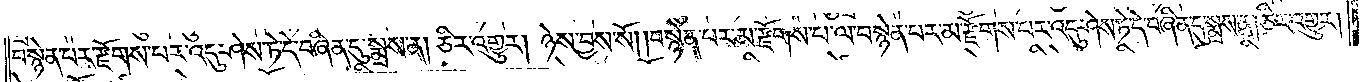བསྙེན་པར་རྫོགས་པར་འདུ་ཤེས་ཏེ་དེ་བཞིན་དུ་སྨྲས་ན། ཅིར་འགྱུར། ཉེས་བྱས་སོ། །བསྙེན་པར་མ་རྫོགས་པ་ལ་བསྙེན་པར་མ་རྫོགས་པར་འདུ་ཤེས་ཏེ་དེ་བཞིན་དུ་སྨྲས་ན། ཅིར་འགྱུར།
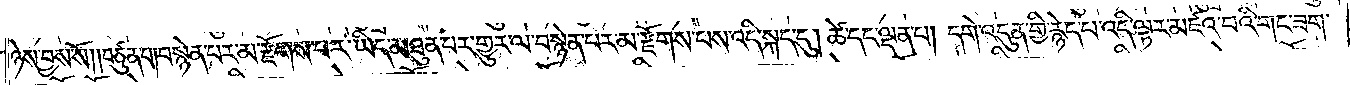ཉེས་བྱས་སོ། །བཙུན་པ། བསྙེན་པར་མ་རྫོགས་པར་ཡིད་མཐུན་པར་གྱུར་ལ་བསྙེན་པར་མ་རྫོགས་པས་འདི་སྐད་དུ། ཚེ་དང་ལྡན་པ། དགེ་འདུན་གྱི་རྙེད་པ་འདི་ལྟར་མཛའ་བའི་གང་ཟག་
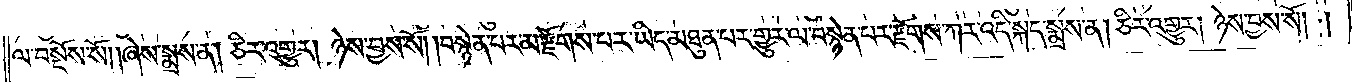ལ་བསྔོས་སོ། །ཞེས་སྨྲས་ན། ཅིར་འགྱུར། ཉེས་བྱས་སོ། །བསྙེན་པར་མ་རྫོགས་པར་ཡིད་མཐུན་པར་གྱུར་ལ་བསྙེན་པར་རྫོགས་ཀར་འདི་སྐད་སྨྲས་ན། ཅིར་འགྱུར། ཉེས་བྱས་སོ། །
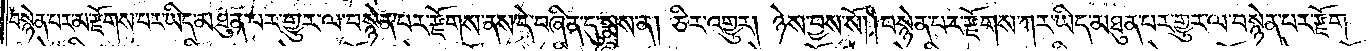བསྙེན་པར་མ་རྫོགས་པར་ཡིད་མཐུན་པར་གྱུར་ལ་བསྙེན་པར་རྫོགས་ནས་དེ་བཞིན་དུ་སྨྲས་ན། ཅིར་འགྱུར། ཉེས་བྱས་སོ། །བསྙེན་པར་རྫོགས་ཀར་ཡིད་མཐུན་པར་གྱུར་ལ་བསྙེན་པར་རྫོགས་
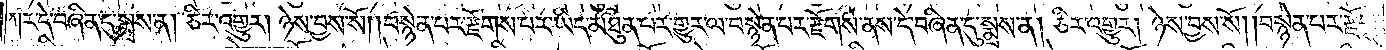ཀར་དེ་བཞིན་དུ་སྨྲས་ན། ཅིར་འགྱུར། ཉེས་བྱས་སོ། །བསྙེན་པར་རྫོགས་པར་ཡིད་མཐུན་པར་གྱུར་ལ་བསྙེན་པར་རྫོགས་ནས་དེ་བཞིན་དུ་སྨྲས་ན། ཅིར་འགྱུར། ཉེས་བྱས་སོ། །བསྙེན་པར་རྫོགས་
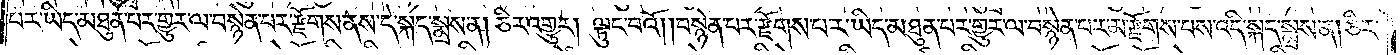པར་ཡིད་མཐུན་པར་གྱུར་ལ་བསྙེན་པར་རྫོགས་ནས་དེ་སྐད་སྨྲས་ན། ཅིར་འགྱུར། ལྟུང་བའོ། །བསྙེན་པར་རྫོགས་པར་ཡིད་མཐུན་པར་གྱུར་ལ་བསྙེན་པར་མ་རྫོགས་པས་འདི་སྐད་སྨྲས་ན། ཅིར་
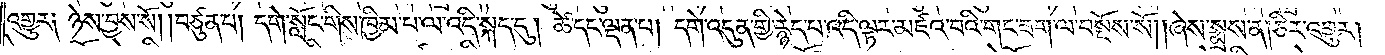འགྱུར༑ ཉེས་བྱས་སོ། །བཙུན་པ། དགེ་སློང་གིས་ཁྱིམ་པ་ལ་འདི་སྐད་དུ། ཚེ་དང་ལྡན་པ། དགེ་འདུན་གྱི་རྙེད་པ་འདི་ལྟར་མཛའ་བའི་གང་ཟག་ལ་བསྔོས་སོ། །ཞེས་སྨྲས་ན། ཅིར་འགྱུར།
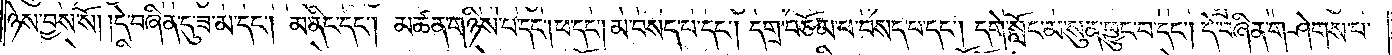ཉེས་བྱས་སོ། །དེ་བཞིན་དུ་ཟ་མ་དང༌། མ་ནིང་དང༌། མཚན་གཉིས་པ་དང༌། ཕ་དང༌། མ་བསད་པ་དང༌། དགྲ་བཅོམ་པ་བསད་པ་དང༌། དགེ་སློང་མ་སུན་ཕྱུང་བ་དང༌། དེ་བཞིན་གཤེགས་པ་
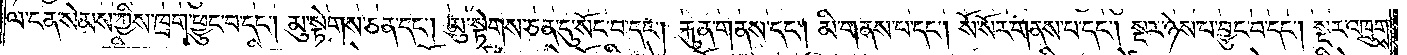ལ་ངན་སེམས་ཀྱིས་ཁྲག་ཕྱུང་བ་དང༌། མུ་སྟེགས་ཅན་དང༌། མུ་སྟེགས་ཅན་དུ་སོང་བ་དང༌། རྐུན་གནས་དང༌། མི་གནས་པ་དང༌། སོ་སོར་གནས་པ་དང༌། སྔར་ཉེས་པ་བྱུང་བ་དང༌། སྔར་འཁྲུགས་
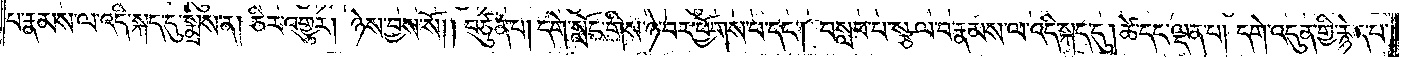པ་རྣམས་ལ་འདི་སྐད་དུ་སྨྲས་ན། ཅིར་འགྱུར། ཉེས་བྱས་སོ། །བཙུན་པ། དགེ་སློང་གིས་ཉེས་བར་ཕྱོགས་པ་དང༌། བསླབ་པ་སྩལ་བ་རྣམས་ལ་འདི་སྐད་དུ། ཚེ་དང་ལྡན་པ། དགེ་འདུན་གྱི་རྙེད་པ་
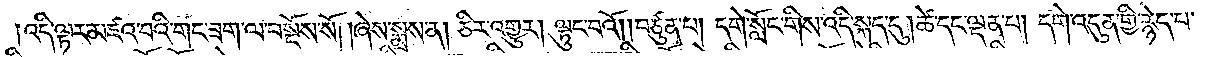།འདི་ལྟར་མཛའ་བའི་གང་ཟག་ལ་བསྔོས་སོ། །ཞེས་སྨྲས་ན། ཅིར་འགྱུར། ལྟུང་བའོ། །བཙུན་པ། དགེ་སློང་གིས་འདི་སྐད་དུ། ཚེ་དང་ལྡན་པ། དགེ་འདུན་གྱི་རྙེད་པ་
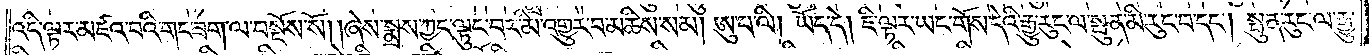འདི་ལྟར་མཛའ་བའི་གང་ཟག་ལ་བསྔོས་སོ། །ཞེས་སྨྲས་ཀྱང་ལྟུང་བར་མི་འགྱུར་བ་མཆིས་སམ། ཨུ་པ་ལི། ཡོད་དེ། ཇི་ལྟར་ཡང་གོས་དེའི་རྒྱུ་རུང་ལ་སྤུན་མི་རུང་བ་དང༌། སྤུན་རུང་ལ་རྒྱུ་
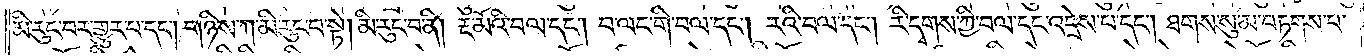མི་རུང་བར་གྱུར་པ་དང༌། གཉིས་ཀ་མི་རུང་བ་སྟེ། མི་རུང་བ་ནི། རྔ་མོའི་བལ་དང༌། བ་ལང་གི་བལ་དང༌། རའི་བལ་དང༌། རི་དྭགས་ཀྱི་བལ་དང་འདྲེས་པ་དང༌། ཐགས་སུ་མ་བཏགས་པ་
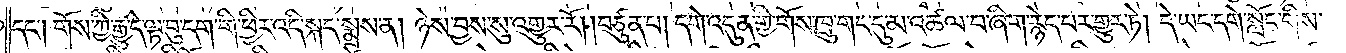དང༌། གོས་ཀྱི་རྒྱུ་དེ་ལྟ་བུ་དག་གི་ཕྱིར་འདི་སྐད་སྨྲས་ན། ཉེས་བྱས་སུ་འགྱུར་རོ། །བཙུན་པ། དགེ་འདུན་གྱི་གོས་ཁྲུ་གང་དུ་མ་འཚལ་བ་ཞིག་རྙེད་པར་གྱུར་ཏེ། དེ་ཡང་དགེ་སློང་གིས་
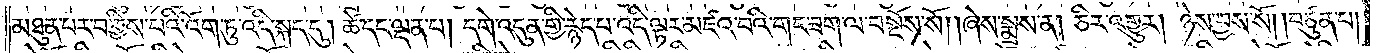མཐུན་པར་བགྱིས་པའི་འོག་ཏུ་འདི་སྐད་དུ། ཚེ་དང་ལྡན་པ། དགེ་འདུན་གྱི་རྙེད་པ་འདི་ལྟར་མཛའ་བའི་གང་ཟག་ལ་བསྔོས་སོ། །ཞེས་སྨྲས་ན། ཅིར་འགྱུར། ཉེས་བྱས་སོ། །བཙུན་པ།
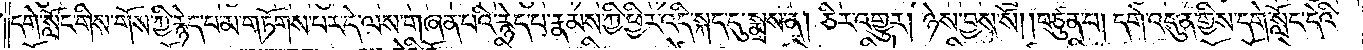དགེ་སློང་གིས་གོས་ཀྱི་རྙེད་པ་མ་གཏོགས་པར་དེ་ལས་གཞན་པའི་རྙེད་པ་རྣམས་ཀྱི་ཕྱིར་འདི་སྐད་དུ་སྨྲས་ན། ཅིར་འགྱུར། ཉེས་བྱས་སོ། །བཙུན་པ། དགེ་འདུན་གྱིས་དགེ་སློང་དེའི་
